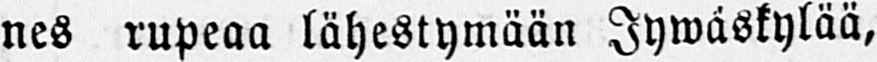nes rupeaa lähestymään Jywäskylää,
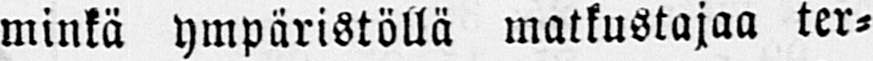minkä ympäristöllä matkustajaa ter-
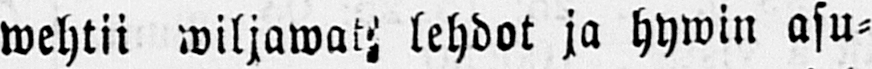wehtii wiljawat lehdot ja hywin asu-
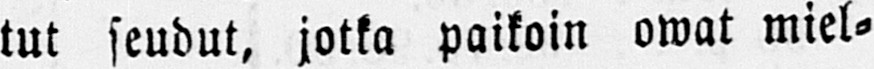tut seudut, jotka paikoin owat miel-
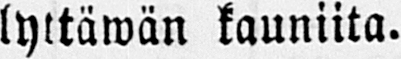lyttäwän kauniita.
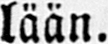lään.
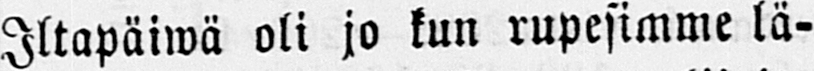Iltapäwä oli jo kun rupesimme lä-
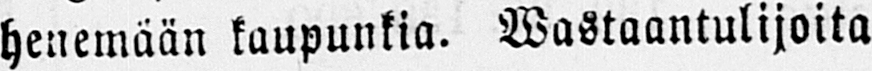henemään kaupunkia. Wastaantulijoita
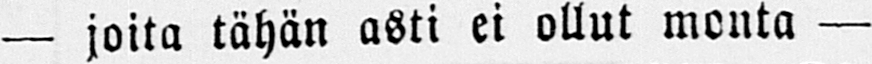— joita tähän asti ei ollut monta —
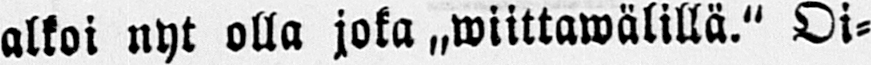alkoi nyt olla joka „wiittawälillä." Oi-
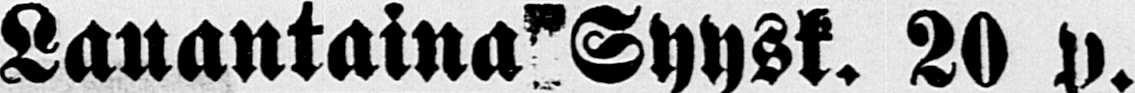Lanantaina Syysk. 20 p.
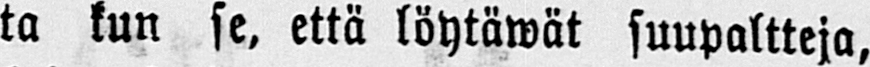ta kun se, että löytäwät suupaltteja,
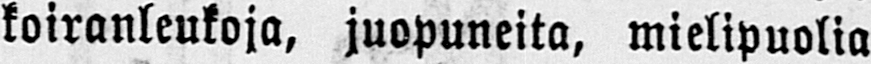koiranleukoja, juopuneita, mielipuolia
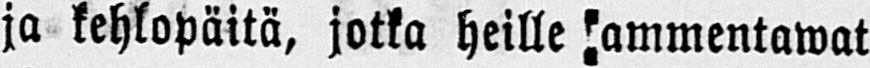ja kehlopäitä, jotka heille ammentawat
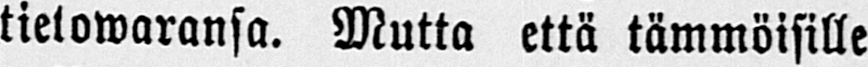tietowaransa. Mutta että tämmöisille
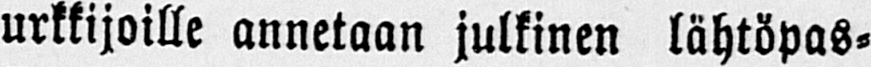urkkijoille annetaan julkinen lähtöpas-
